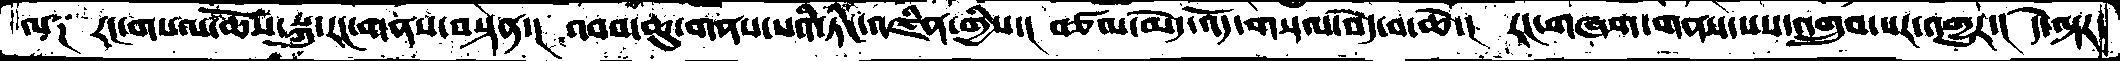ལ༑  རང་གསལ་ཆོས་སྐུ་རང་གནས་བསྟན་།  འབབ་ཆུ་གནས་པའི་ཏིང་འཛིན་གྱིས་།  བཙལ་མེད་འོད་གསལ་བདེ་བ་ཆེ་།   རང་གཞག་གནས་པས་འགྲུབ་པར་འགྱུར་།  དེ་ལྟར་
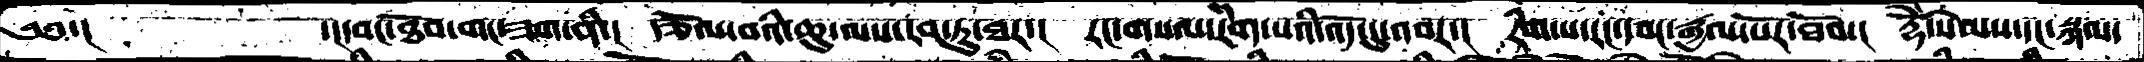༄༅་།           ་།དབང་ཐོབ་གང་ཟག་ནི་།  རྩོལ་བའི་ཆུ་ལས་རབ་ཏུ་ཐར་།  རང་གསལ་རིག་པའི་འོད་དུ་འབར་།  རིག་པ་རང་དབང་རྒྱལ་པོར་ཐོབ་།  རྡོེ་སེམས་དང་སྐལ་
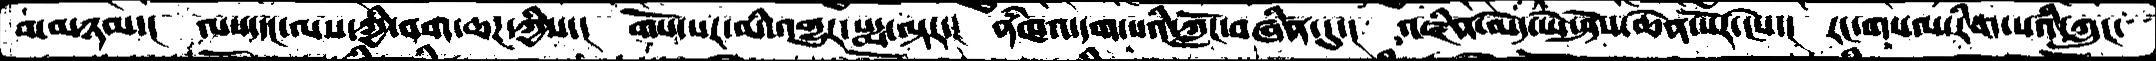བ་མཉམ་།  ལས་དང་ལས་ཀྱི་བག་ཆཌ་ཀྱིས་།  གོས་པར་མི་འགྱུར་པདྨ་ལྟར་།  ནཾཁའ་དག་པའི་ཀློང་བཞིན་དུ་།  འཛིན་མེད་ཡེ་ཤེས་ཆེན་པོར་ངེས་།  རང་གསལ་རིག་པའི་ཀླུང་
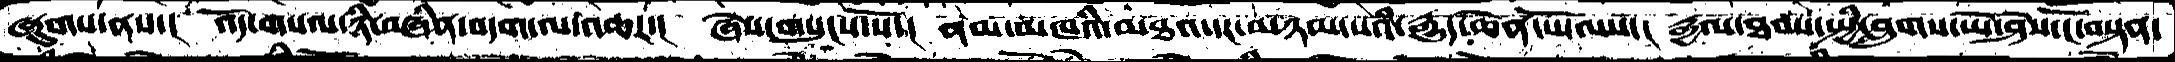ཞུགས་ནས་།  འོད་གསལ་ཉི་བཞིན་བདག་ལ་འཆར་།  ཞེས་གསུངས་སོ་།  ནམ་མཁའི་མཐའ་དང་མཉམ་པའི་རྒྱུད་ཆེན་པོ་ལས་།  རྒྱལ་ཐབས་སྤྱི་བླུགས་ཡེ་ཤེས་ངོ་བསྟན་
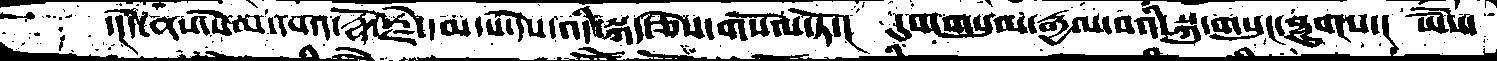་།དེ་ནས་སེམ་དཔའ་རྡོ་རྗེ་དམ་པ་དེེས་འདི་སྐད་ཅེས་གསོལ་ཏོ་།  དུས་གསུམ་རྒྱལ་བའི་སྐུ་གསུང་ཐུགས་།  ཡཻས་
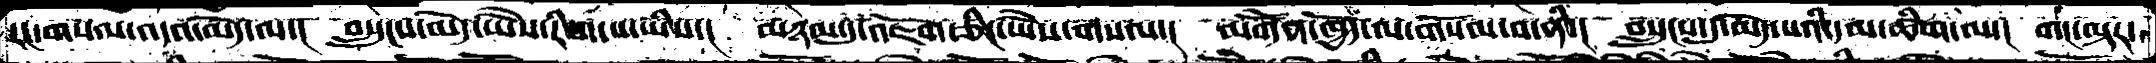རང་གསལ་འདའ་མེད་ལ་།  བསྲུངས་མེད་ཡཻས་རིག་པ་ཡིས་།  མཉམ་དུ་འཇོག་ཅིང་ཡཻས་གསལ་།  མགཽན་ཁྱོད་ལ་གསོལ་བ་ནི་།  བསྲུངས་དུ་མེད་པའི་དམ་ཚིག་ལ་།  གང་ལྟར་
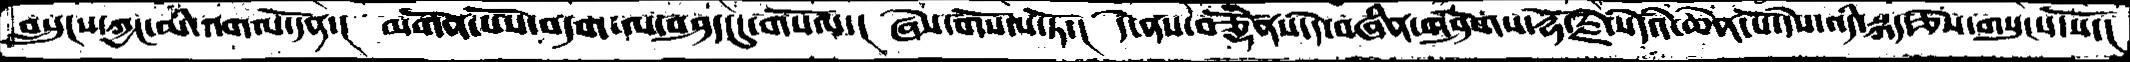བསྲུངས་ཀྱང་མི་འགལ་དོན་།  མགོན་པོས་བདག་ལ་བཤད་དུ་གསོལ་།  ཞེས་གསོལ་ཏོ་།  དེ་ནས་བཅྡོཾནས་དེ་བཞིན་གཤེགས་རྡོ་རྗེ་སེདཾའ་ཆེན་པོ་དེས་འདི་སྐད་ཅེས་གསུངས་སོ་།
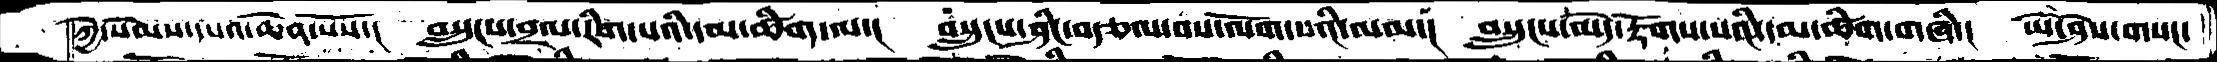ཀྱེ་སེམས་དཔའ་ཆེན་པོས་།  བསྲུངས་བྲལ་རིག་པའི་དམ་ཚིག་ལ་།  བསྲུངས་ཤིང་བརྩལ་བས་ལོག་པའི་ལམ་།  བསྲུངས་མེད་རྟོགས་པའི་དམ་ཚིག་གཞི་།  ཡེ་ཤེས་གསང་
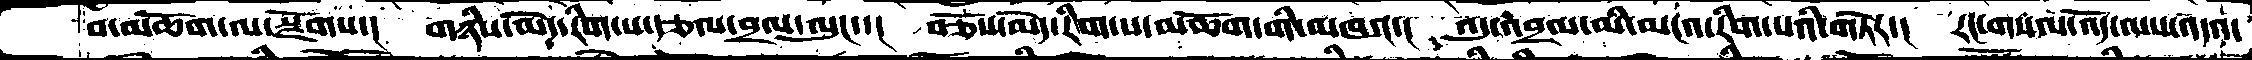བ་མཆོག་ལ་སྫོགས་།  གཉིས་མེད་རིག་པ་རྩལ་བྲལ་ལུང་་།  བཅོས་མེད་རིག་པ་མཆོག་གི་མཁའ་།  འདུ་འབྲལ་མི་མངའ་རིག་པའི་གཏེར་།  རང་གསལ་འོད་ལས་འདའ་
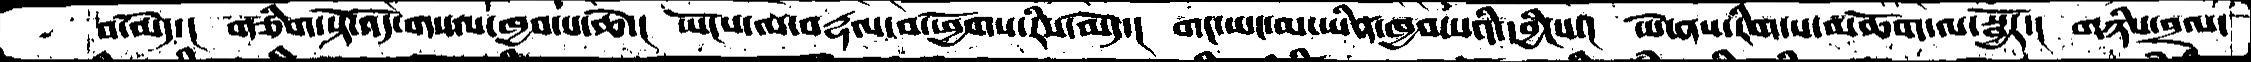བ་མེད་། གཅིག་སྟེ་འོད་གསལ་ཁྱབ་པ་ཆེ་།  ཡོངས་ལ་བརྡལ་བ་ཕྱོགས་རིས་མེད་།  གང་ཡང་མ་ཡིན་ཁྱབ་པའི་དབྱིངས་།  ཡེ་ནས་རིག་པ་མཆོག་ལ་སྦྱོར་།  གཉིས་བྲལ་
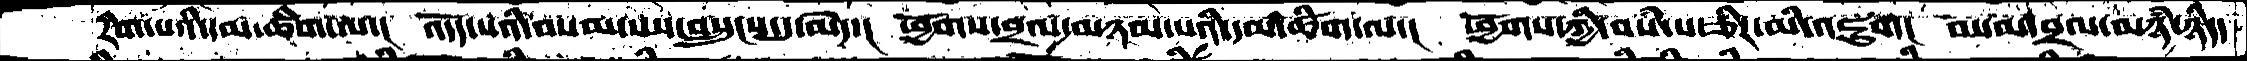རིག་པའི་དམ་ཚིག་ལ་།  འདོད་པའི་བསམ་པས་བསྲུངས་དུ་མེད་།  ཕྱོགས་བྲལ་མཉམ་པའི་དམ་ཚིག་ལ་།  ཕྱོོགས་ཀྱི་བསཾ་པ་ཅིར་མི་འཇུག།  བསམ་བྲལ་མཉཾ་ཉིད་
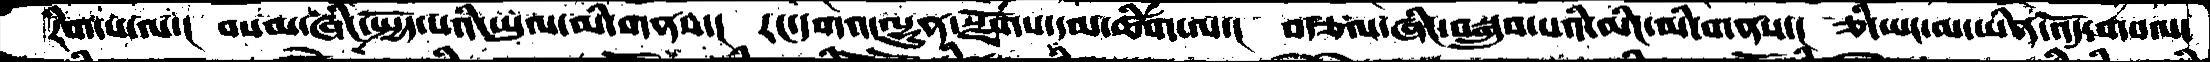རིག་པ་ལ་།  བསམ་ཞིང་སྤྱོད་པའི་ཡུལ་མི་གནས་།  རང་དགའ་ལྷུན་སྫོགས་དམ་ཚིག་ལ་།  བརྩལ་ཞིང་བསྒྲུབ་པའི་མིང་མི་གནས་།  ཅི་ཡང་མ་ཡིན་འོད་གསལ་
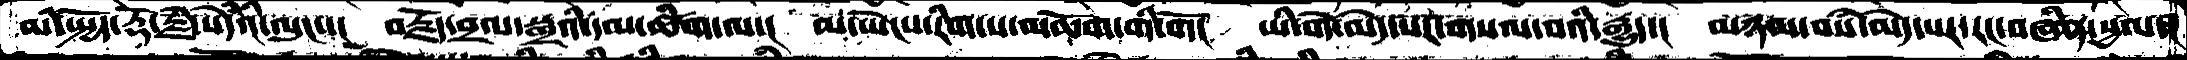མི་སྤྱོད་རྡོ་རྗེ་སེཾདེའི་ལུང་་།  བརྗོད་བྲལ་སྒྲའི་དམ་ཚིག་ལ་།  མ་ཡེངས་རིག་པ་མཆོག་གི་གོ།  ཡི་གེ་མེད་པར་གསལ་བའི་རྒྱུད་།  མཉམ་བསཾ་མེད་པར་རང་བཞིན་སྱལ་།
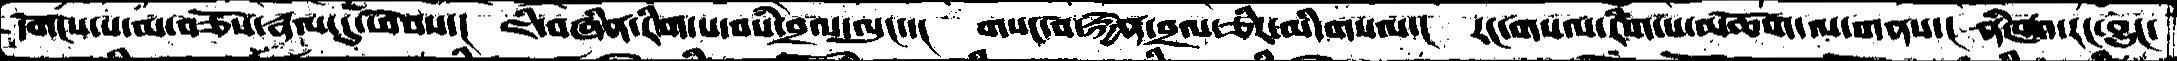དགོངས་པ་མ་བཅོས་རྣལ་དུ་ཕེབས་།  ཇི་བཞིན་རིག་པ་བསཾ་བྲལ་ལུང་་།  གསང་བ་སྐྱེན་བྲལ་ཅིར་མི་གསལ་།  རང་གསལ་རིག་པ་མཆོག་ལ་གནས་།  ནཾཁའ་རང་བྱུང་
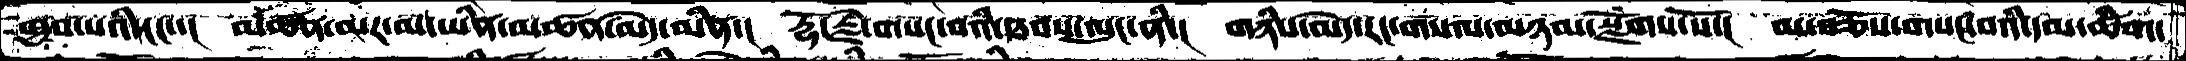ཁྱབ་པའི་ངང་་།  མཚན་མར་མ་ཡིན་མཚན་མེད་ཡིན་།  རྡོ་རྗེ་གསང་བའི་ཐབས་ལུང་ནི་།  གཉིས་མེད་རང་གསལ་མཉམ་སྫོགས་སོ་།  མ་བཅོས་གསང་བའི་དམ་ཚིག་
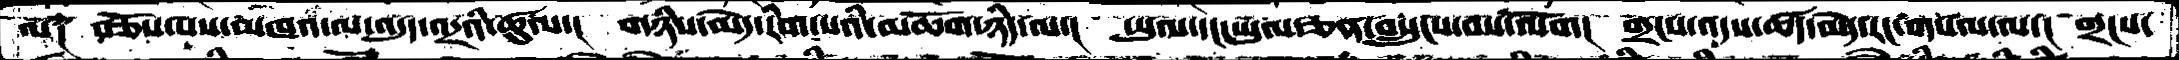ལ༑  བཅོས་པས་མཁའ་ལ་འདུད་འདྲའི་ཚུལ་།  གཉིས་མེད་རིག་པའི་མཆོག་ཉིད་ལ་།  ཡུལ་དང་ཡུལ་ཅན་བསྲུངས་བས་ལོག།  གྲངས་འདས་ཚད་མེད་རང་གསལ་ལ་།  གྲངས་
